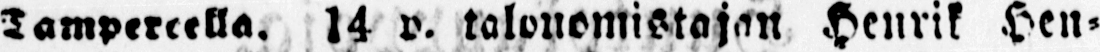Tampereella. 14 v. talonomistajan Henrik Hen-
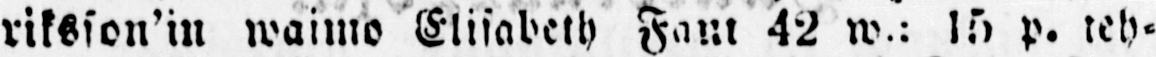riksson'in waimo Elisabeth Fant 42 w.: 15, p. teh-
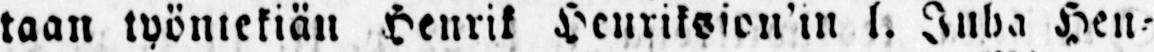taan työntekiän Henrik Henriksien'in l. Juha Hen-
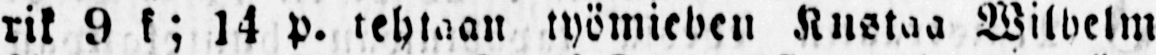rik 9 k; 14 p. tehtaan työmiehen Kustaa Wilhelm
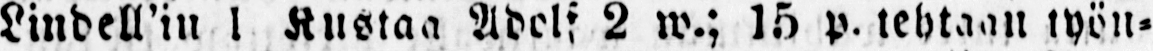Lindell'in l Kustaa Adolf 2 w.; 15 p. tehtaan työn-
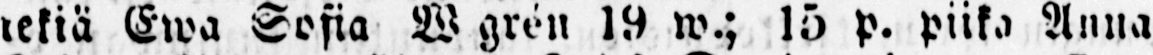tekiä Ewa Sofia W grén 19 w.; 15 p. piika Anna
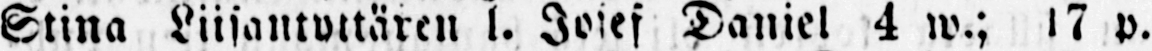Stina Liisantyttären l. Josef Daniel 4 w.; p.
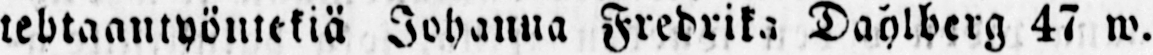tehtaantyöntekiä Johanna Fredrika Dahlberg 47 w.
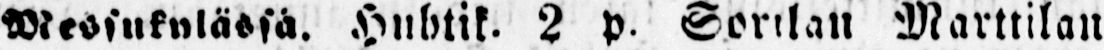Messukylässä. Huhtik. 2 p Sorilan Marttilan
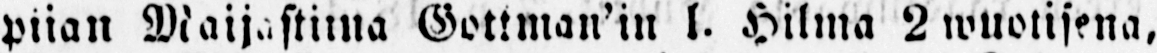piian Maijastiina Gottman'in l. Hilma 2 wuotisena,
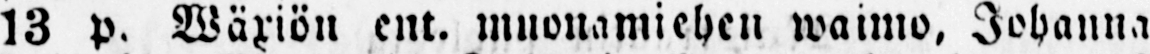13 p. Waxiön ent. muonamiehen waimo, Johanna
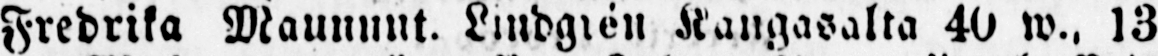Fredrika Maununt. Lindgrén Kangasalta 40 w.. 13
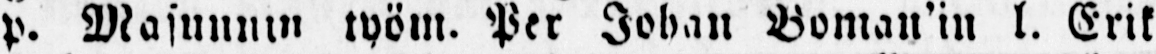p. Masuunin työm. Per Johan Boman'in l. Erik
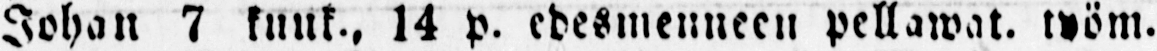Johan 7 knnk., 14 p. edesmenneen pellawat. työm.
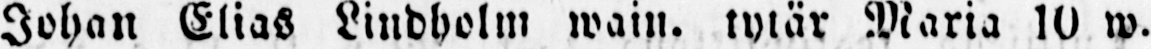Johan Elias Lindholm wain. tytär Maria 10 w.
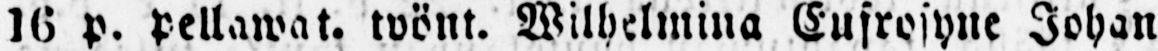16 p. pellawat. työnt. Wilhelmina Eufrosyne Johan
